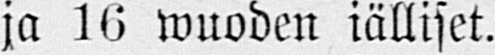ja 16 wuoden iälliset.
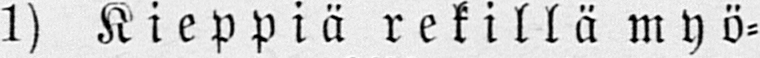1) Kieppiä rekillä myö-
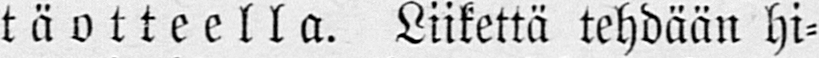täotteella. Liikettä tehdään hi-
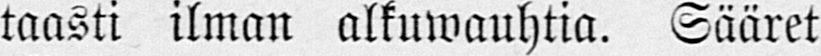taasti ilman alkuwauhtia. Sääret
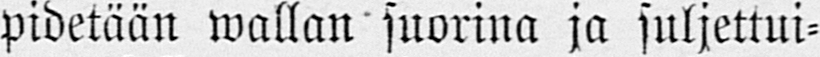pidetään wallan suorina ja suljettui-
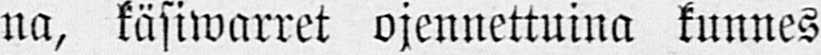na, käsiwarret ojennettuina kunnes
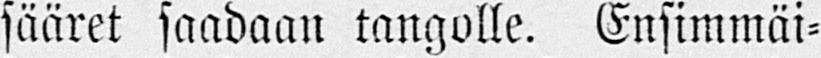sääret saadaan tangolle. Ensimmäi-
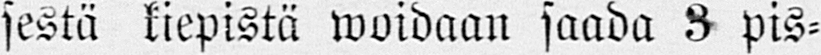sestä kiepistä woidaan saada 3 pis-
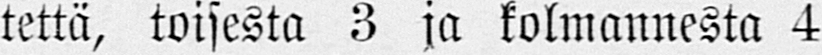tettä, toisesta 3 ja kolmannesta 4
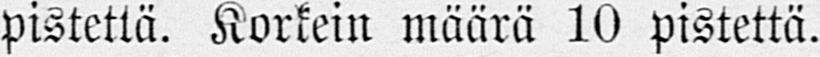pistettä. Korkein määrä 10 pistettä.
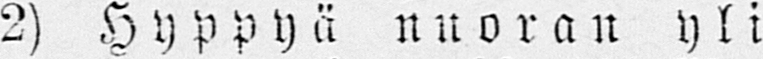2) Hyppyä nuoran yli
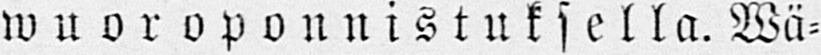wuoroponnistuksella. Wä-
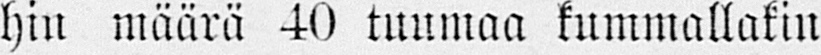hin määrä 40 tuumaa kummallakin
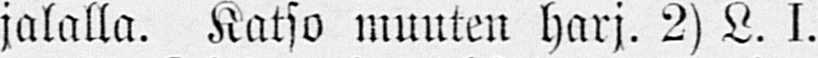jalalla. Katso muuten harj. 2) L. I.
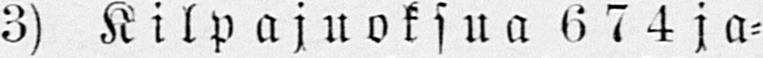3) Kilpajuoksua 674 ja-
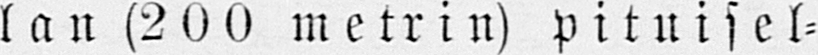lan (200 metrin) pituisel-
